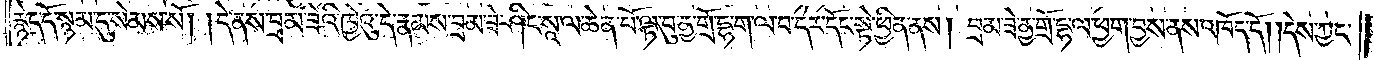རྙེད་དོ་སྙམ་དུ་སེམས་སོ། །དེ་ནས་བྲམ་ཟེའི་ཁྱེའུ་དེ་རྣམས་བྲམ་ཟེ་ཤིང་སཱ་ལ་ཆེན་པོ་ལྟ་བུ་ནྱ་གྲོ་དྷ་ག་ལ་བ་དེར་དོང་སྟེ་ཕྱིན་ནས། བྲམ་ཟེ་ནྱ་གྲོ་དྷ་ལ་ཕྱག་བྱས་ནས་འཁོད་དོ། །དེས་ཀྱང་
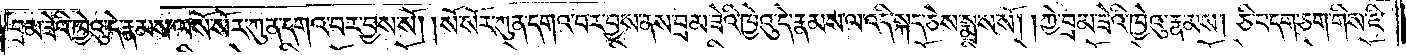བྲམ་ཟེའི་ཁྱེའུ་དེ་རྣམས་ལ་སོ་སོར་ཀུན་དགའ་བར་བྱས་སོ། །སོ་སོར་ཀུན་དགའ་བར་བྱས་ནས་བྲམ་ཟེའི་ཁྱེའུ་དེ་རྣམས་ལ་འདི་སྐད་ཅེས་སྨྲས་སོ། །ཀྱེ་བྲམ་ཟེའི་ཁྱེའུ་རྣམས། ཅི་བདག་ཅག་གིས་ཇི་
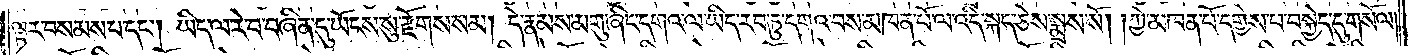ལྟར་བསམས་པ་དང༌། ཡིད་ལ་རེ་བ་བཞིན་དུ་ཡོངས་སུ་རྫོགས་སམ། དེ་རྣམས་མགུ་ཞིང་དགའ་ལ་ཡིད་རབ་ཏུ་དགའ་བས་མཁན་པོ་ལ་འདི་སྐད་ཅེས་སྨྲས་སོ། །ཀྱེ་མཁན་པོ་དགྱེས་པ་བསྐྱེད་དུ་གསོལ།
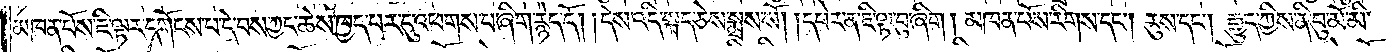མཁན་པོས་ཇི་ལྟར་དགོངས་པ་དེ་བས་ཀྱང་ཆེས་ཁྱད་པར་དུ་འཕགས་པ་ཞིག་རྙེད་དོ། །དེས་འདི་སྐད་ཅེས་སྨྲས་སོ། །དཔེར་ན་ཇི་ལྟ་བུ་ཞིག །མཁན་པོས་རིགས་དང༌། རུས་དང༌། རྒྱུད་ཀྱིས་ནི་བུ་མོ་མི་
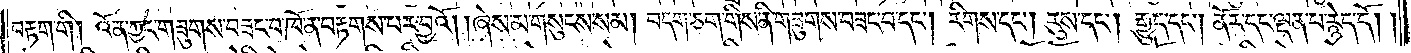བརྟག་གི། འོན་ཀྱང་གཟུགས་བཟང་བ་ཁོ་ན་བརྟགས་པར་བྱའོ། །ཞེས་མ་གསུངས་སམ། བདག་ཅག་གིས་ནི་གཟུགས་བཟང་བ་དང༌། རིགས་དང༌། རུས་དང༌། རྒྱུད་དང༌། ནོར་དང་ལྡན་པ་རྙེད་དོ། །
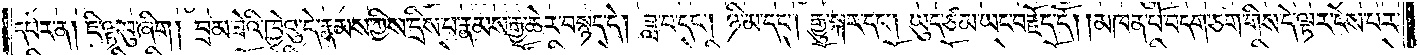དཔེར་ན། ཇི་ལྟ་བུ་ཞིག །བྲམ་ཟེའི་ཁྱེའུ་དེ་རྣམས་ཀྱིས་དྲིས་པ་རྣམས་རྒྱ་ཆེར་བསྙད་དེ། ཟླ་བ་དང༌། ཉི་མ་དང༌། རྒྱུ་སྐར་དང༌། ཡུད་ཙམ་ཡང་བརྗོད་དོ། །མཁན་པོ་བདག་ཅག་གིས་དེ་ལྟར་ངེས་པར་
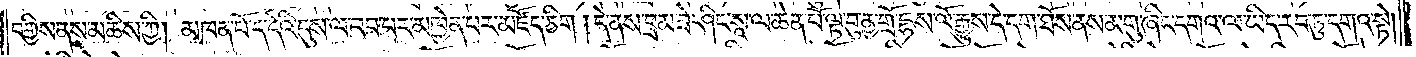བགྱིས་ནས་མཆིས་ཀྱི། མཁན་པོ་ད་དེའི་དུས་ལ་བབ་པར་མཁྱེན་པར་མཛོད་ཅིག །དེ་ནས་བྲམ་ཟེ་ཤིང་སཱ་ལ་ཆེན་པོ་ལྟ་བུ་ནྱ་གྲོ་དྷས་ལོ་རྒྱུས་དེ་དག་ཐོས་ནས་མགུ་ཞིང་དགའ་ལ་ཡིད་རབ་ཏུ་དགའ་སྟེ།
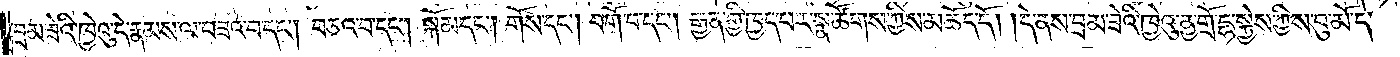བྲམ་ཟེའི་ཁྱེའུ་དེ་རྣམས་ལ་བཟའ་བ་དང༌། བཅའ་བ་དང༌། སྐོམ་དང༌། གོས་དང༌། བགོ་བ་དང༌། རྒྱན་གྱི་ཁྱད་པར་སྣ་ཚོགས་ཀྱིས་མཆོད་དོ། །དེ་ནས་བྲམ་ཟེའི་ཁྱེའུ་ནྱ་གྲོ་དྷ་སྐྱེས་ཀྱིས་བུ་མོ་དེ་
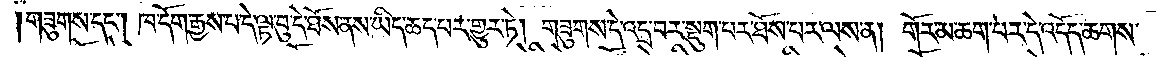གཟུགས་དང༌། ཁ་དོག་རྒྱས་པ་དེ་ལྟ་བུ་དེ་ཐོས་ནས་ཡིད་ཆད་པར་གྱུར་ཏེ། གཟུགས་དེ་འདྲ་བར་སྡུག་པར་ཐོས་པར་ལས་ན། གོར་མ་ཆག་པར་དེ་འདོད་ཆགས་
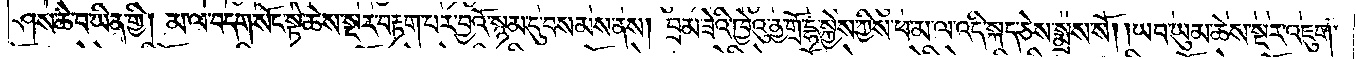ཤས་ཆེ་བ་ཡིན་གྱི། མ་ལ་བདག་སོང་སྟེ་ཆེས་སྔར་བརྟག་པར་བྱའོ་སྙམ་དུ་བསམས་ནས། བྲམ་ཟེའི་ཁྱེའུ་ནྱ་གྲོ་དྷ་སྐྱེས་ཀྱིས་ཕ་མ་ལ་འདི་སྐད་ཅེས་སྨྲས་སོ། །ཡབ་ཡུམ་ཆེས་སྔར་འཇུག་
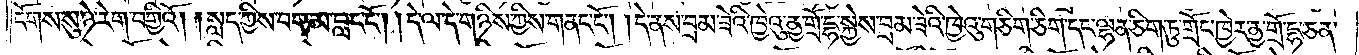ངོགས་སུ་ཉེ་རེག་བགྱིའོ། །སླད་ཀྱིས་བག་མ་བླང་ངོ༌། །དེ་ལ་དེ་གཉིས་ཀྱིས་གནང་ངོ༌། །དེ་ནས་བྲམ་ཟེའི་ཁྱེའུ་ནྱ་གྲོ་དྷ་སྐྱེས་བྲམ་ཟེའི་ཁྱེའུ་གཅིག་ཅིག་དང་ལྷན་ཅིག་ཏུ་གྲོང་ཁྱེར་ནྱ་གྲོ་དྷ་ཅན་
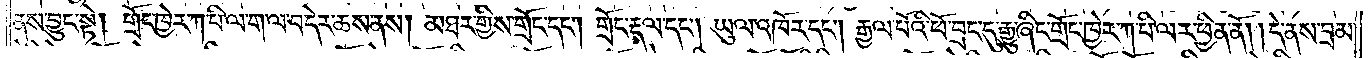ནས་བྱུང་སྟེ། གྲོང་ཁྱེར་ཀ་པི་ལ་ག་ལ་བ་དེར་ཆས་ནས། མཐར་གྱིས་གྲོང་དང༌། གྲོང་རྡལ་དང༌། ཡུལ་འཁོར་དང༌། རྒྱལ་པོའི་ཕོ་བྲང་དུ་རྒྱུ་ཞིང་གྲོང་ཁྱེར་ཀ་པི་ལར་ཕྱིན་ནོ། །དེ་ནས་བྲམ་
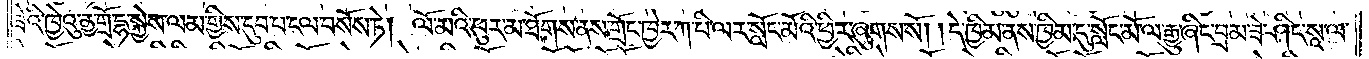ཟེའི་ཁྱེའུ་ནྱ་གྲོ་དྷ་སྐྱེས་ལམ་གྱིས་དུབ་པ་ངལ་བསོས་ཏེ། ལོ་མའི་ཕུར་མ་ཐོགས་ནས་གྲོང་ཁྱེར་ཀ་པི་ལར་སློང་མོའི་ཕྱིར་ཞུགས་སོ། །དེ་ཁྱིམ་ནས་ཁྱིམ་དུ་སློང་མོ་ལ་རྒྱུ་ཞིང་བྲམ་ཟེ་ཤིང་སཱ་ལ་
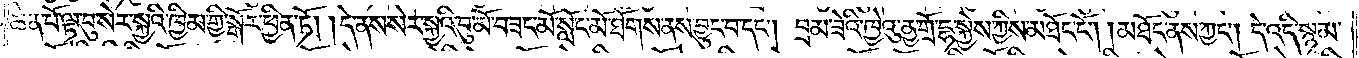ཆེན་པོ་ལྟ་བུ་སེར་སྐྱའི་ཁྱིམ་གྱི་སྒོར་ཕྱིན་ཏོ། །དེ་ནས་སེར་སྐྱའི་བུ་མོ་བཟང་མོ་སློང་མོ་ཐོགས་ནས་བྱུང་བ་དང༌། བྲམ་ཟེའི་ཁྱེའུ་ནྱ་གྲོ་དྷ་སྐྱེས་ཀྱིས་མཐོང་ངོ༌། །མཐོང་ནས་ཀྱང༌། དེ་འདི་སྙམ་
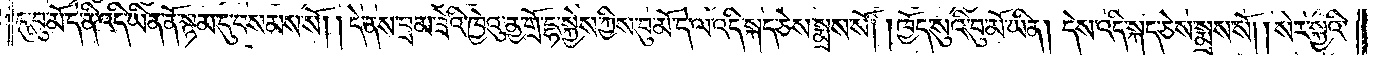དུ་བུ་མོ་དེ་ནི་འདི་ཡིན་ནོ་སྙམ་དུ་བསམས་སོ། །དེ་ནས་བྲམ་ཟེའི་ཁྱེའུ་ནྱ་གྲོ་དྷ་སྐྱེས་ཀྱིས་བུ་མོ་དེ་ལ་འདི་སྐད་ཅེས་སྨྲས་སོ། །ཁྱོད་སུའི་བུ་མོ་ཡིན། དེས་འདི་སྐད་ཅེས་སྨྲས་སོ། །སེར་སྐྱའི་
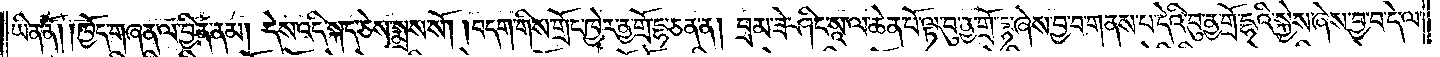ཡིན་ནོ། །ཁྱོད་གཞན་ལ་བྱིན་ནམ། དེས་འདི་སྐད་ཅེས་སྨྲས་སོ། །བདག་གིས་གྲོང་ཁྱེར་ནྱ་གྲོ་དྷ་ཅན་ན། བྲམ་ཟེ་ཤིང་སཱ་ལ་ཆེན་པོ་ལྟ་བུ་ནྱ་གྲོ་དྷ་ཞེས་བྱ་བ་གནས་པ་དེའི་བུ་ནྱ་གྲོ་དྷའི་སྐྱེས་ཞེས་བྱ་བ་དེ་ལ་
